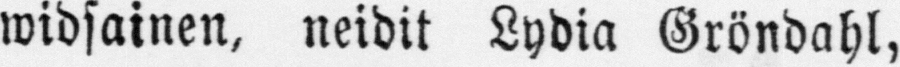widsainen, neidit Lydia Gröndahl,
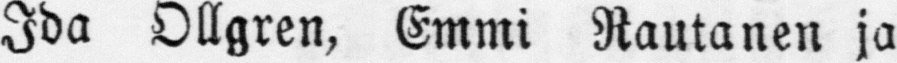Ida Ollgren, Emmi Rautanen ja
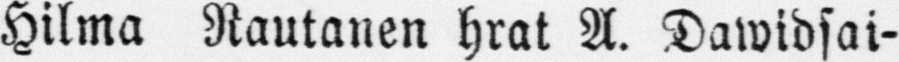Hilma Rautanen hrat A. Dawidsai-
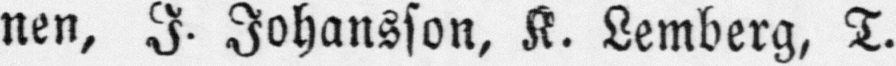nen, I. Johansson, K. Lemberg, T.
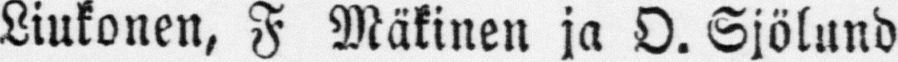Liukonen, F Mäkinen ja O. Sjölund
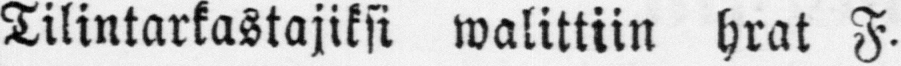Tilintarkastajiksi walittiin hrat F.
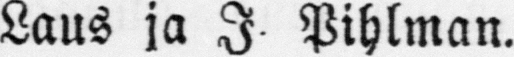Laus ja I. Pihlman.
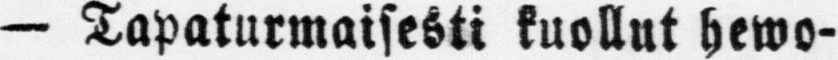— Tapaturmaisesti kuollut hewo-
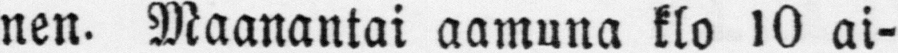nen. Maanantai aamuna klo 10 ai-
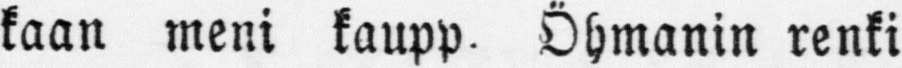kaan meni kaupp. Öhmanin renki
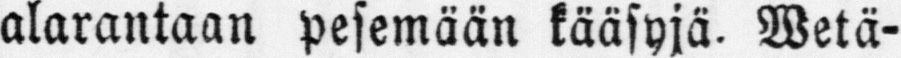alarantaan pesemään kääsyjä. Wetä-
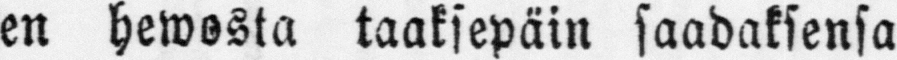en hewosta taaksepäin saaduksensa
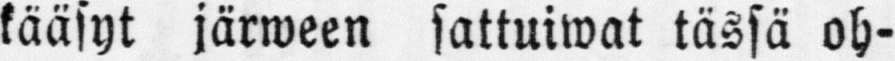kääsyt järween sattuiwat tässä oh-
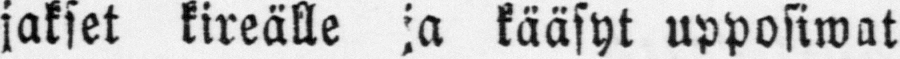jakset kireälle ja kääsyt upposiwat
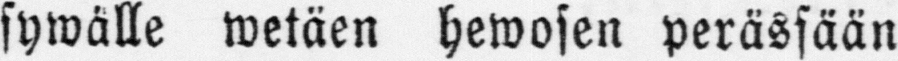sywälle wetäen hewosen perässään
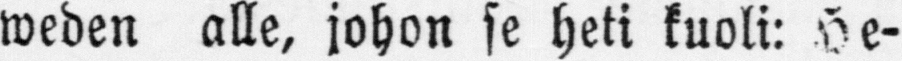weden alle, johon se heti kuoli: He-
